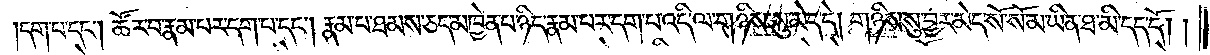དག་པ་དང༌། ཚོར་བ་རྣམ་པར་དག་པ་དང༌། རྣམ་པ་ཐམས་ཅད་མཁྱེན་པ་ཉིད་རྣམ་པར་དག་པ་འདི་ལ་གཉིས་སུ་མེད་དེ། གཉིས་སུ་བྱར་མེད་སོ་སོ་མ་ཡིན་ཐ་མི་དད་དོ། །
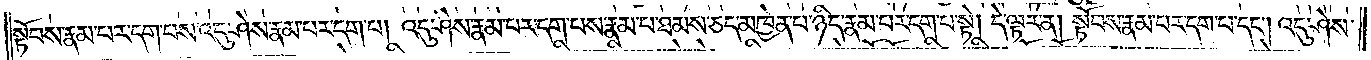སྟོབས་རྣམ་པར་དག་པས་འདུ་ཤེས་རྣམ་པར་དག་པ། འདུ་ཤེས་རྣམ་པར་དག་པས་རྣམ་པ་ཐམས་ཅད་མཁྱེན་པ་ཉིད་རྣམ་པར་དག་པ་སྟེ། དེ་ལྟར་ན། སྟོབས་རྣམ་པར་དག་པ་དང༌། འདུ་ཤེས་
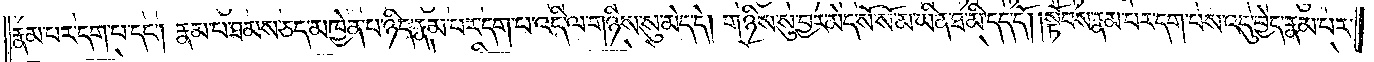རྣམ་པར་དག་པ་དང༌། རྣམ་པ་ཐམས་ཅད་མཁྱེན་པ་ཉིད་རྣམ་པར་དག་པ་འདི་ལ་གཉིས་སུ་མེད་དེ། གཉིས་སུ་བྱར་མེད་སོ་སོ་མ་ཡིན་ཐ་མི་དད་དོ། །སྟོབས་རྣམ་པར་དག་པས་འདུ་བྱེད་རྣམ་པར་
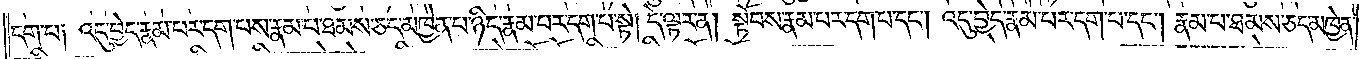དག་པ༑ འདུ་བྱེད་རྣམ་པར་དག་པས་རྣམ་པ་ཐམས་ཅད་མཁྱེན་པ་ཉིད་རྣམ་པར་དག་པ་སྟེ། དེ་ལྟར་ན། སྟོབས་རྣམ་པར་དག་པ་དང༌། འདུ་བྱེད་རྣམ་པར་དག་པ་དང༌། རྣམ་པ་ཐམས་ཅད་མཁྱེན་
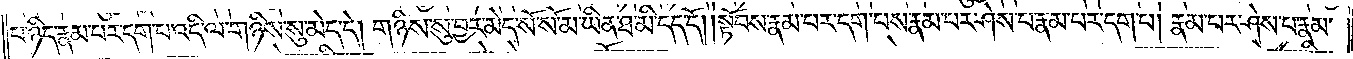པ་ཉིད་རྣམ་པར་དག་པ་འདི་ལ་གཉིས་སུ་མེད་དེ། གཉིས་སུ་བྱར་མེད་སོ་སོ་མ་ཡིན་ཐ་མི་དད་དོ། །སྟོབས་རྣམ་པར་དག་པས་རྣམ་པར་ཤེས་པ་རྣམ་པར་དག་པ། རྣམ་པར་ཤེས་པ་རྣམ་
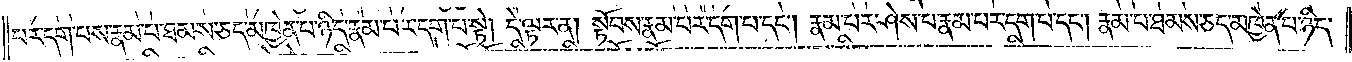པར་དག་པས་རྣམ་པ་ཐམས་ཅད་མཁྱེན་པ་ཉིད་རྣམ་པར་དག་པ་སྟེ། དེ་ལྟར་ན། སྟོབས་རྣམ་པར་དག་པ་དང༌། རྣམ་པར་ཤེས་པ་རྣམ་པར་དག་པ་དང༌། རྣམ་པ་ཐམས་ཅད་མཁྱེན་པ་ཉིད་
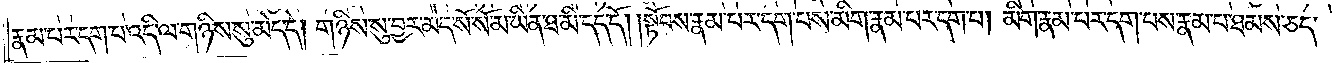རྣམ་པར་དག་པ་འདི་ལ་གཉིས་སུ་མེད་དེ། གཉིས་སུ་བྱར་མེད་སོ་སོ་མ་ཡིན་ཐ་མི་དད་དོ། །སྟོབས་རྣམ་པར་དག་པས་མིག་རྣམ་པར་དག་པ། མིག་རྣམ་པར་དག་པས་རྣམ་པར་ཐམས་ཅད་
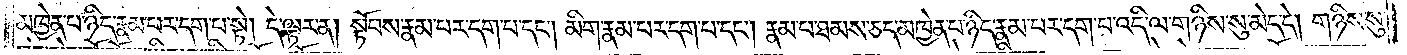མཁྱེན་པ་ཉིད་རྣམ་པར་དག་པ་སྟེ། དེ་ལྟར་ན། སྟོབས་རྣམ་པར་དག་པ་དང༌། མིག་རྣམ་པར་དག་པ་དང༌། རྣམ་པ་ཐམས་ཅད་མཁྱེན་པ་ཉིད་རྣམ་པར་དག་པ་འདི་ལ་གཉིས་སུ་མེད་དེ། གཉིས་སུ་
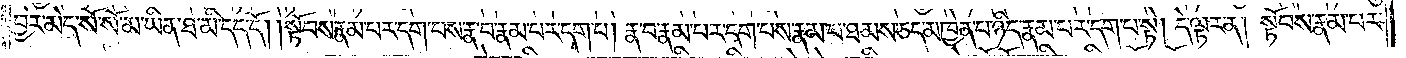བྱར་མེད་སོ་སོ་མ་ཡིན་ཐ་མི་དད་དོ། །སྟོབས་རྣམ་པར་དག་པས་རྣ་བ་རྣམ་པར་དག་པ། རྣ་བ་རྣམ་པར་དག་པས་རྣམ་པ་ཐམས་ཅད་མཁྱེན་པ་ཉིད་རྣམ་པར་དག་པ་སྟེ། དེ་ལྟར་ན། སྟོབས་རྣམ་པར་
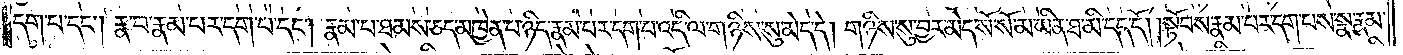དག་པ་དང༌། རྣ་བ་རྣམ་པར་དག་པ་དང༌། རྣམ་པ་ཐམས་ཅད་མཁྱེན་པ་ཉིད་རྣམ་པར་དག་པ་འདི་ལ་གཉིས་སུ་མེད་དེ། གཉིས་སུ་བྱར་མེད་སོ་སོ་མ་ཡིན་ཐ་མི་དད་དོ། །སྟོབས་རྣམ་པར་དག་པས་སྣ་རྣམ་
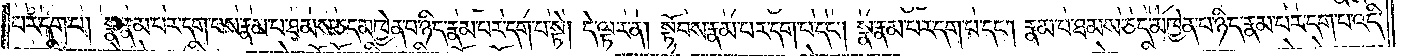པར་དག་པ། སྣ་རྣམ་པར་དག་པས་རྣམ་པ་ཐམས་ཅད་མཁྱེན་པ་ཉིད་རྣམ་པར་དག་པ་སྟེ། དེ་ལྟར་ན། སྟོབས་རྣམ་པར་དག་པ་དང༌། སྣ་རྣམ་པར་དག་པ་དང༌། རྣམ་པ་ཐམས་ཅད་མཁྱེན་པ་ཉིད་རྣམ་པར་དག་པ་འདི་
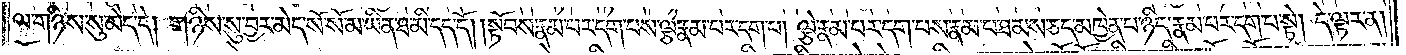ལ་གཉིས་སུ་མེད་དེ། གཉིས་སུ་བྱར་མེད་སོ་སོ་མ་ཡིན་ཐ་མི་དད་དོ། །སྟོབས་རྣམ་པར་དག་པས་ལྕེ་རྣམ་པར་དག་པ། ལྕེ་རྣམ་པར་དག་པས་རྣམ་པ་ཐམས་ཅད་མཁྱེན་པ་ཉིད་རྣམ་པར་དག་པ་སྟེ། དེ་ལྟར་ན།
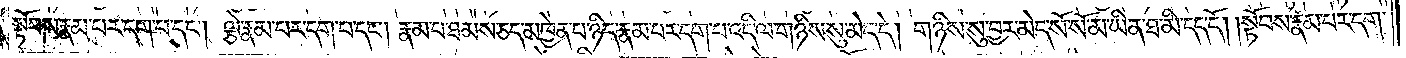སྟོབས་རྣམ་པར་དག་པ་དང༌། ལྕེ་རྣམ་པར་དག་པ་དང༌། རྣམ་པ་ཐམས་ཅད་མཁྱེན་པ་ཉིད་རྣམ་པར་དག་པ་འདི་ལ་གཉིས་སུ་མེད་དེ། གཉིས་སུ་བྱར་མེད་སོ་སོ་མ་ཡིན་ཐ་མི་དད་དོ། །སྟོབས་རྣམ་པར་དག་
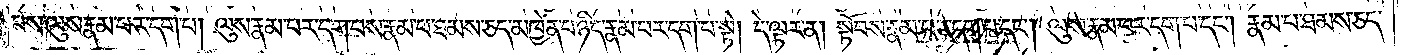པས་ལུས་རྣམ་པར་དག་པ། ལུས་རྣམ་པར་དག་པས་རྣམ་པ་ཐམས་ཅད་མཁྱེན་པ་ཉིད་རྣམ་པར་དག་པ་སྟེ། དེ་ལྟར་ན། སྟོབས་རྣམ་པར་དག་པ་དང༌། ལུས་རྣམ་པར་དག་པ་དང༌། རྣམ་པ་ཐམས་ཅད་
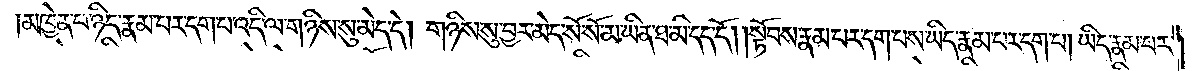མཁྱེན་པ་ཉིད་རྣམ་པར་དག་པ་འདི་ལ་གཉིས་སུ་མེད་དེ། གཉིས་སུ་བྱར་མེད་སོ་སོ་མ་ཡིན་ཐ་མི་དད་དོ། །སྟོབས་རྣམ་པར་དག་པས་ཡིད་རྣམ་པར་དག་པ། ཡིད་རྣམ་པར་
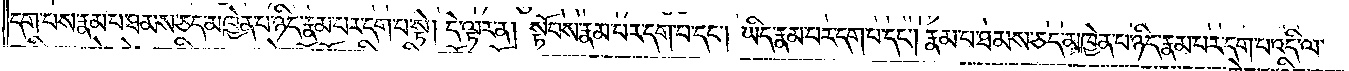དག་པས་རྣམ་པ་ཐམས་ཅད་མཁྱེན་པ་ཉིད་རྣམ་པར་དག་པ་སྟེ། དེ་ལྟར་ན། སྟོབས་རྣམ་པར་དག་པ་དང༌། ཡིད་རྣམ་པར་དག་པ་དང༌། རྣམ་པ་ཐམས་ཅད་མཁྱེན་པ་ཉིད་རྣམ་པར་དག་པ་འདི་ལ་
